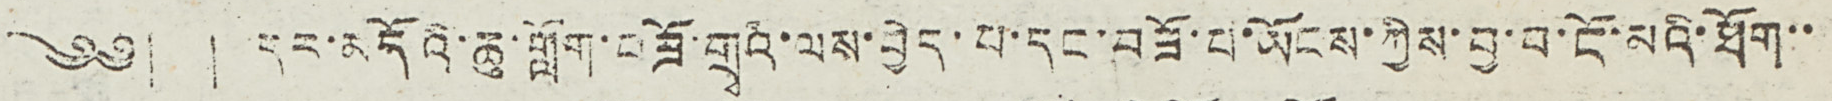༄༅། །དར་མདོའི་ཆུ་གློག་བཟོ་གྲྭའི་ལས་བྱེད་པ་དང་བཟོ་པ་ཡོངས་ཀྱིས་བྱ་བ་ངོ་མའི་ཐོག་་
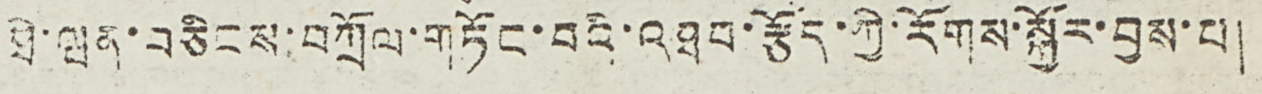ཐེ་ཝན་བཅིངས་བཀྲོལ་གཏོང་བའི་འཐབ་རྩོད་ཀྱི་རོགས་སྐྱོར་བྱས་པ།
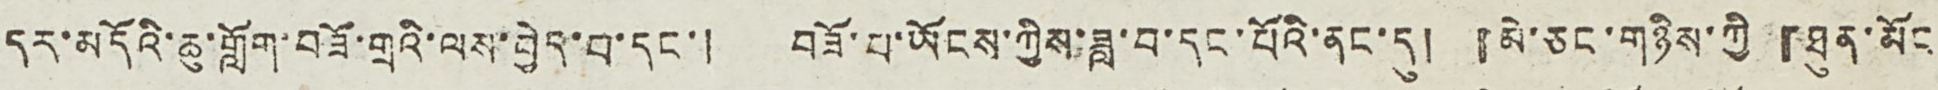དར་མདོའི་ཆུ་གློག་བཟོ་གྲྭའི་ལས་བྱེད་བ་དང་། བཟོ་པ་ཡོངས་ཀྱིས་ཟླ་བ་དང་པོའི་ནང་དུ། 『མི་ཅང་གཉིས་ཀྱི 『ཐུན་མོང
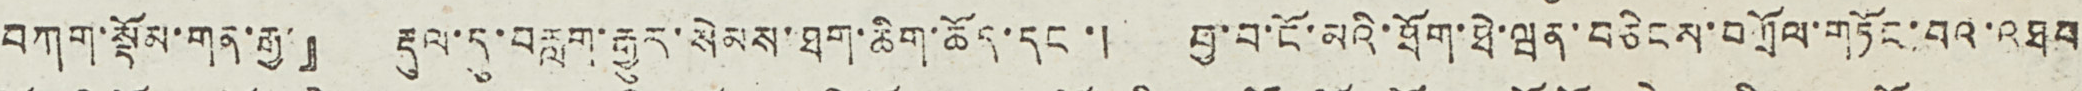བཀག་སྡོམ་གན་རྒྱ་』 རྡུལ་དུ་བརླག་རྒྱུར་སེམས་ཐག་ཆིག་ཆོད་དང་། བྱ་བ་ངོ་མའི་ཐོག་ཐེ་ཝན་བཅིངས་བཀྲོལ་གཏོང་བའི་འཐབ
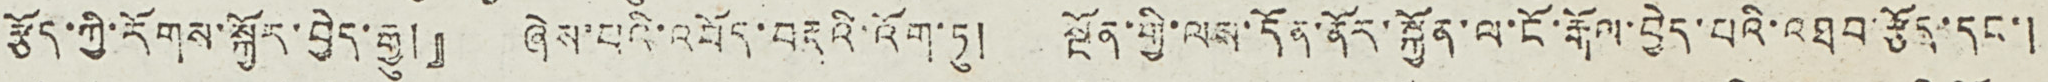རྩོད་ཀྱི་རོགས་སྐྱོར་བྱེད་རྒྱུ།』 ཞེས་པའི་འབོད་བརྡའི་འོག་ཏུ། སྔོན་གྱི་ལས་དོན་ནོར་སྐྱོན་ལ་ངོ་རྒོལ་བྱེད་པའི་འཐབ་རྩོད་དང་།
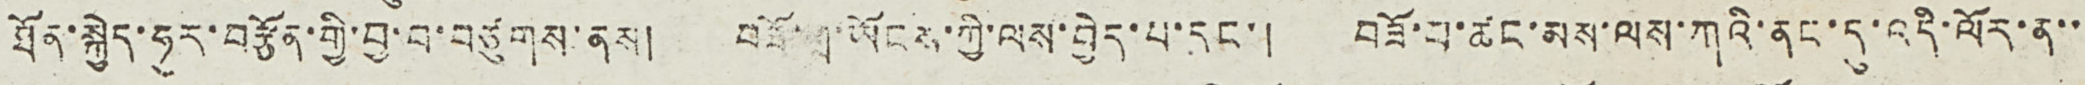ཐོན་སྐྱེད་ཧུར་བརྩོན་གྱི་བྱ་བ་བཙུགས་ནས། བཟོ་གྲ་ཡོངས་ཀྱི་ལས་བྱེད་པ་དང་། བཟོ་པ་ཚང་མས་ལས་ཀའི་ནང་དུ་འདི་ལོར་ན་་
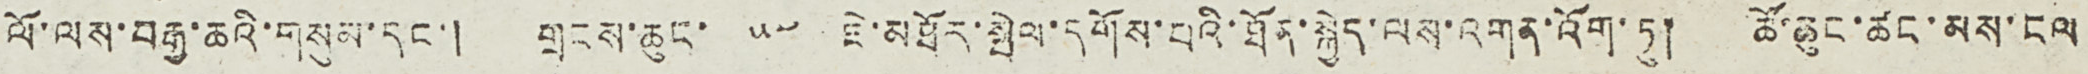ལོ་ལས་བརྒྱ་ཆའི་གསུམ་དང་། གྲངས་ཆུང་ ༥༤ ཇེ་མཐོར་སྤེལ་དགོས་པའི་ཐོན་སྐྱེད་ལས་འགན་འོག་ཏུ། ཚོ་ཆུང་ཚང་མས་ངལ
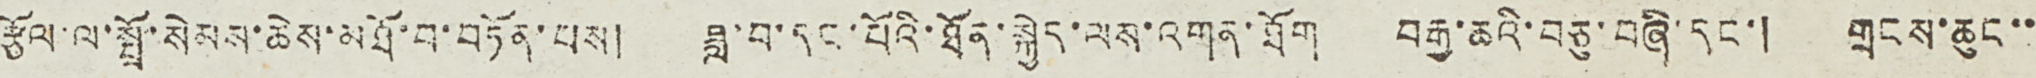རྩོལ་ལ་སྤྲོ་སེམས་ཆེས་མཐོ་བ་བཏོན་པས། ཟླ་བ་དང་པོའི་ཐོན་སྐྱེད་ལས་འགན་ཐོག བརྒྱ་ཆའི་བཅུ་བཞི་དང་། གྲངས་ཆུང་་
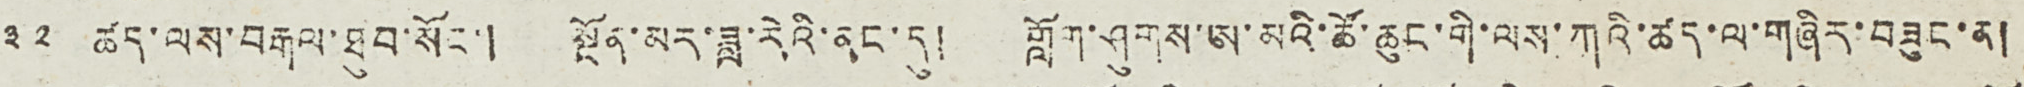༣༢ ཚད་ལས་བརྒལ་ཐུབ་སོང་། སྔོན་མར་ཟླ་རེའི་ནང་དུ། གློག་ཤུགས་ཨ་མའི་ཚོ་ཆུང་གི་ལས་ཀའི་ཚད་ལ་གཞིར་བཟུང་ན།
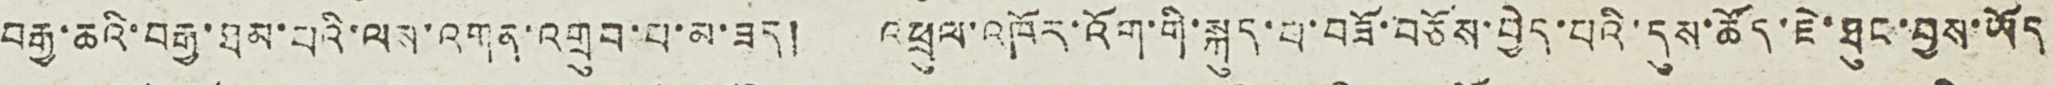བརྒྱ་ཆའི་བརྒྱ་ཐམ་པའི་ལས་འགན་འགྲུབ་པ་མ་ཟད། འཕྲུལ་འཁོར་འོག་གི་སྐུད་པ་བཟོ་བཅོས་བྱེད་པའི་དུས་ཚོད་ཇེ་ཐུང་བྱས་ཡོད
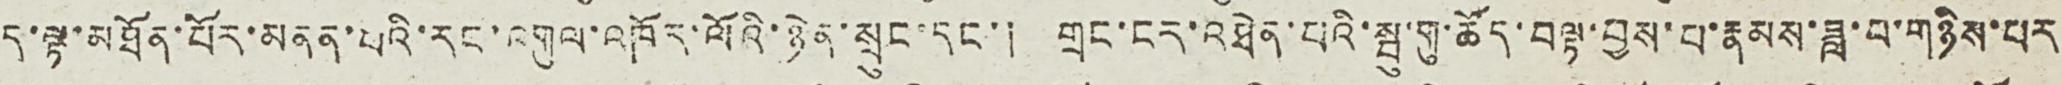ད་ལྟ་མཐོན་པོར་མནན་པའི་རང་འགུལ་འཁོར་ལོའི་ཉེན་སྲུང་དང་། གྲང་ངར་འཐེན་པའི་སྤུ་གུ་ཚོད་བལྟ་བྱས་པ་རྣམས་ཟླ་བ་གཉིས་པར
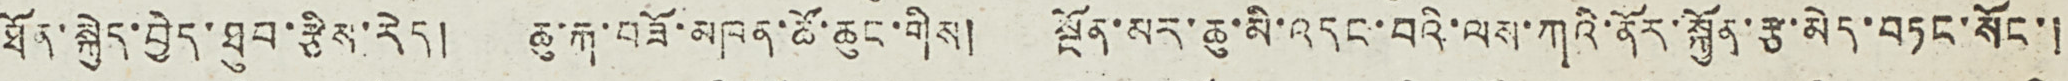ཐོན་སྐྱེད་བྱེད་ཐུབ་རྩིས་རེད། ཆུ་རྐ་བཟོ་མཁན་ཚོ་ཆུང་གིས། སྔོན་མར་ཆུ་མི་འདང་བའི་ལས་ཀའི་ནོར་སྐྱོན་རྩ་མེད་བཏང་སོང་།
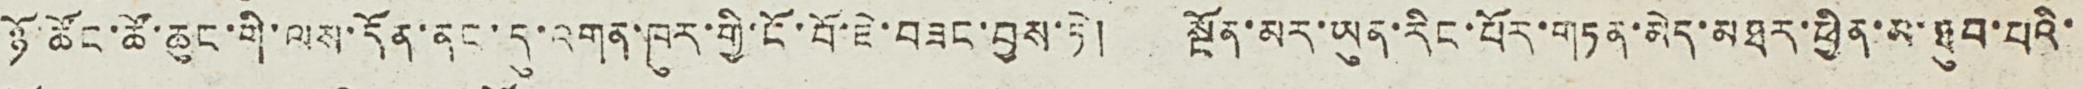ཉོ་ཚོང་ཚོ་ཆུང་གི་ལས་དོན་ནང་དུ་འགན་ཁུར་གྱི་ངོ་བོ་ཇེ་བཟང་བྱས་ཏེ། སྔོན་མར་ཡུན་རིང་པོར་གཏན་མེད་མཐུར་ཕྱིན་མ་ཐུབ་པའི་
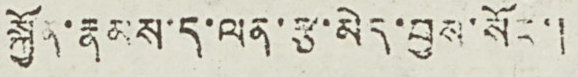སྐྱོན་རྣམས་ད་ལན་རྩ་མེད་བྱས་སོང་།
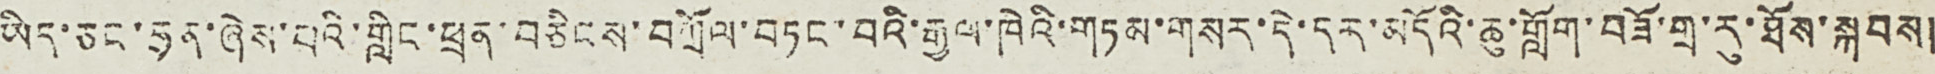ཡིད་ཅང་ཧྲན་ཞེས་པའི་གླིང་ཕྲན་བཅིངས་བཀྲོལ་བཏང་བའི་རྒྱལ་ཁེའི་གཏམ་གསར་དེ་དར་མདོའི་ཆུ་གློག་བཟོ་གྲ་རུ་ཐོས་སྐབས།
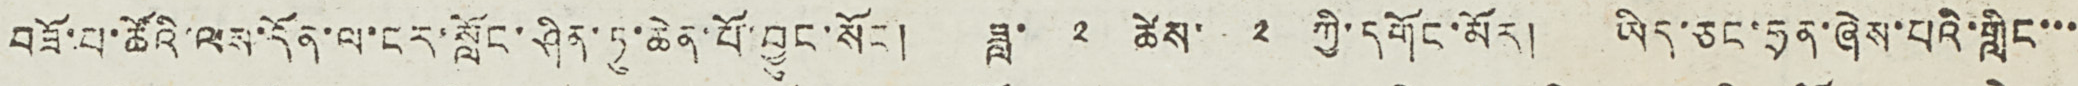བཟོ་པ་ཚོའི་ལས་དོན་ལ་ངར་སློང་ཤིན་ཏུ་ཆེན་པོ་བྱུང་སོང ། ཟླ་ ༢ ཚེས་ ༢ ཀྱི་དགོང་མོར། ཡིད་ཅང་ཧྲན་ཞེས་པའི་གླིང་་་
